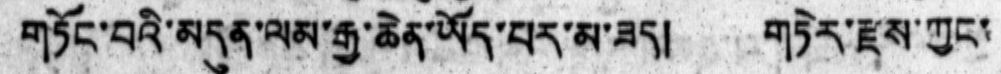གཏོང་བའི་མདུན་ལམ་རྒྱ་ཆེན་ཡོད་པར་མ་ཟད། གཏེར་རྫས་ཀྱང་
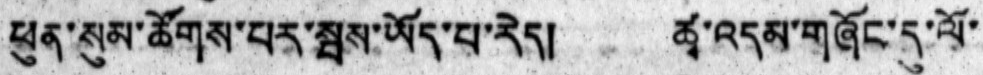ཕུན་སུམ་ཚོགས་པར་སྤས་ཡོད་པ་རེད། ཚྭ་འདམ་གཞོང་དུ་ལོ་
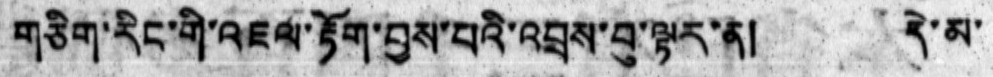གཅིག་རིང་གི་འཇལ་རྟོག་བྱས་པའི་འབྲས་བུ་ལྟར་ན། དེ་མ་
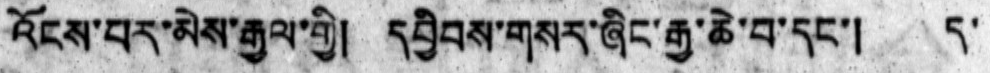འོངས་པར་མེས་རྒྱལ་གྱི། དབྱིབས་གསར་ཞིང་རྒྱ་ཆེ་བ་དང་། ད་
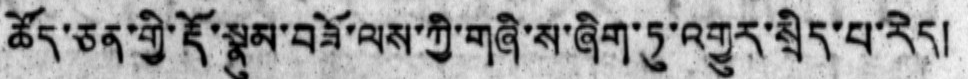ཚོད་ཅན་གྱི་རྡོ་སྣུམ་བཟོ་ལས་ཀྱི་གཞི་ས་ཞིག་ཏུ་འགྱུར་སྲིད་པ་རེད།
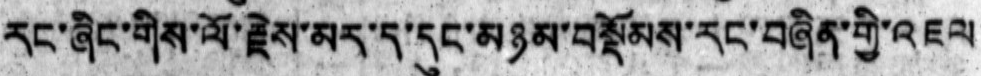རང་ཞིང་གིས་ལོ་རྗེས་མར་ད་དུང་མཉམ་བསྡོམས་རང་བཞིན་གྱི་འཇལ
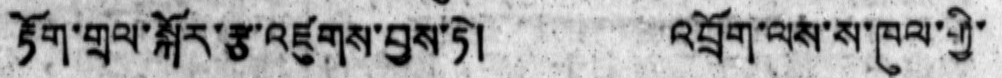རྟོག་གྲལ་སྐོར་རྩ་འཛུགས་བྱས་ཏེ། འབྲོག་ལས་ས་ཁུལ་གྱི་
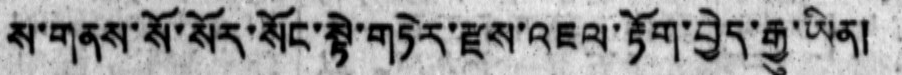ས་གནས་སོ་སོར་སོང་སྟེ་གཏེར་རྫས་འཇལ་རྟོག་བྱེད་རྒྱུ་ཡིན།
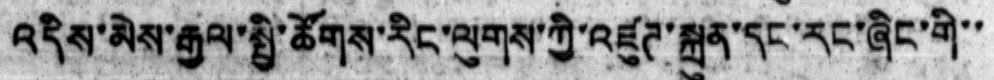འདིས་མེས་རྒྱལ་སྤྱི་ཚོགས་རིང་ལུགས་ཀྱི་འཛུཊ་སྐྲུན་དང་རང་ཞིང་གི་་
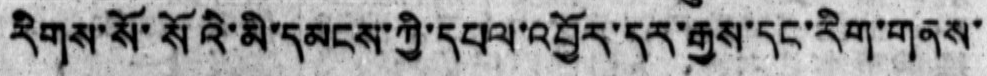རིགས་སོ་སོའི་མི་དམངས་ཀྱི་དཔལ་འབྱོར་དར་རྒྱས་དང་རིག་གནས་
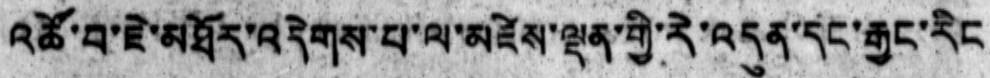འཚོ་བ་ཇེ་མཐོར་འདེགས་པ་ལ་མཛེས་ལྡན་གྱི་རེ་འདུན་དང་རྒྱང་རིང
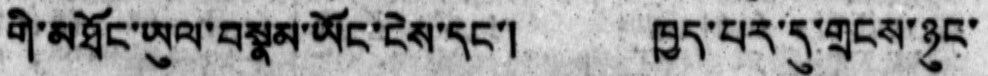གི་མཐོང་ཡུལ་བསྣམ་ཡོང་ངེས་དང་། ཁྱད་པར་དུ་གྲངས་ཉུང་
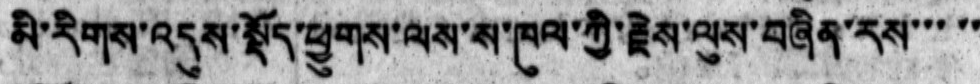མི་རིགས་འདུས་སྡོད་ཕྱུགས་ལས་ས་ཁུལ་ཀྱི་རྗེས་ལུས་བཞིན་རས་་་་་
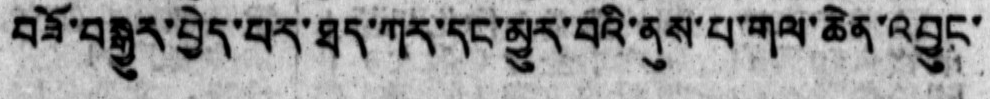བཟོ་བསྒྱུར་བྱེད་པར་ཐད་ཀར་དང་མྱུར་བའི་ནུས་པ་གལ་ཆེན་འབྱུང་
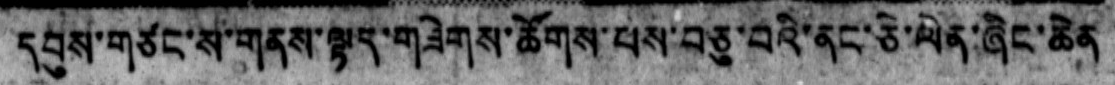དབུས་གཙང་ས་གནས་ལྟད་གཟེགས་ཚོགས་པས་བཅུ་བའི་ནང་ཅེ་ལེན་ཞིང་ཆེན
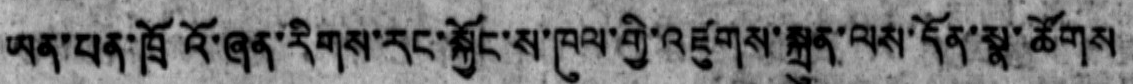ཡན་པན་ཁྲོའོ་ཞན་རིགས་རང་སྐྱོང་ས་ཁུལ་གྱི་འཛུགས་སྐྲུན་ལས་དོན་སྣ་ཚོགས
